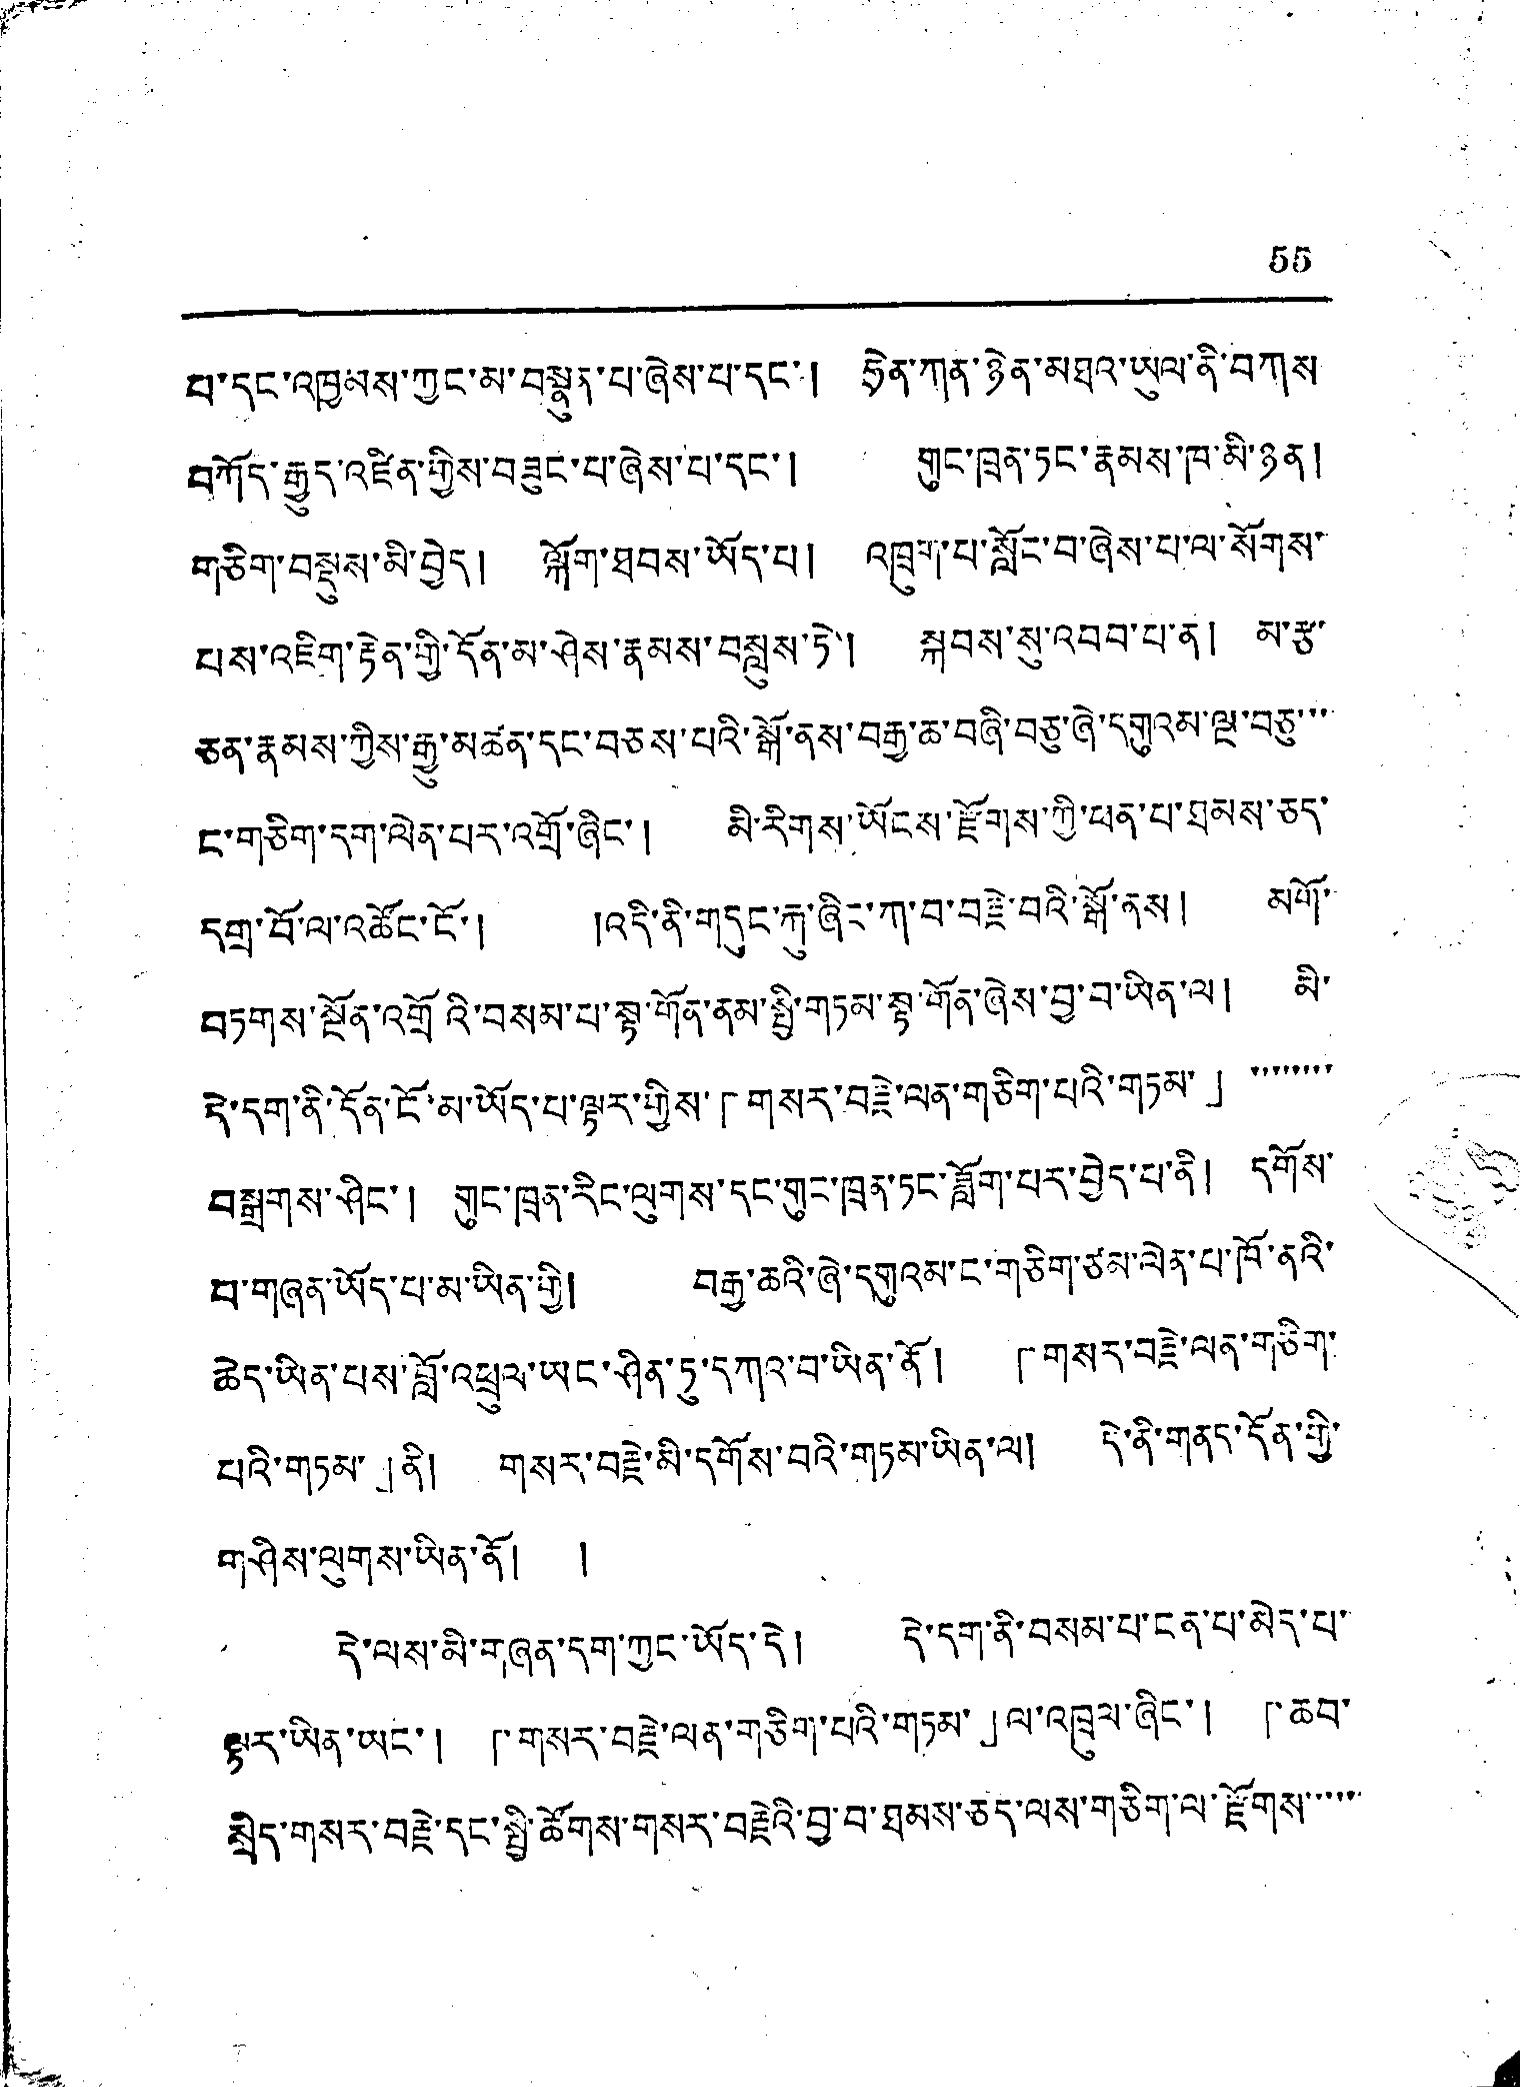55
པ་དང་འཁྱམས་ཀྱང་མ་བསྣུན་པ་ཞེས་པ་དང་། ཧྲེན་ཀུན་ཉེན་མཐའ་ཡུལ་ནི་བཀས་
བཀོད་རྒྱུད་འཛིན་གྱིས་བཟུང་པ་ཞེས་པ་དང་། གུང་ཁྲན་ཏང་རྣམས་ཁ་མི་ཉན།
གཅིག་བསྡུས་མི་བྱེད། ལྐོག་ཐབས་ཡོད་པ། འཁྲུག་པ་སློང་བ་ཞེས་པ་ལ་སོགས་
པས་འཇིག་རྟེན་གྱི་དོན་མ་ཤེས་རྣམས་བསླུས་ཏེ་། སྐབས་སུ་འབབ་པ་ན། མ་རྩ་
ཅན་རྣམས་ཀྱིས་རྒྱུ་མཚན་དང་བཅས་པའི་སྒོ་ནས་བརྒྱ་ཆ་བཞི་བཅུ་ཞེ་དགུའམ་ལྔ་བཅུ་་་་
ང་གཅིག་དག་ལེན་པར་འགྲོ་ཞིང་། མི་རིགས་ཡོངས་རྫོགས་ཀྱི་ཕན་པ་ཐམས་ཅད་
དགྲ་བོ་ལ་འཚོང་ངོ་། །འདི་ནི་གདུང་རྐུ་ཞིང་ཀ་བ་བརྗེ་བའི་སྒོ་ནས། མགོ་
བཏགས་སྔོན་འགྲོའི་བསམ་པ་སྟ་གོན་ནམ་སྤྱི་གཏམ་སྟ་གོན་ཞེས་བྱ་བ་ཡིན་ལ། མི་
དེ་དག་ནི་དོན་ངོ་མ་ཡོད་པ་ལྟར་གྱིས་「གསར་བརྗེ་ལན་གཅིག་པའི་གཏམ་」་་་་་་་་
བསྒྲགས་ཤིང་། གུང་ཁྲན་རིང་ལུགས་དང་གུང་ཁྲན་ཏང་ཟློག་པར་བྱེད་པ་ནི། དགོས་
བ་གཞན་ཡོད་པ་མ་ཡིན་གྱི། བརྒྱ་ཆའི་ཞེ་དགུའམ་ང་གཅིག་ཙམ་ལེན་པ་ཁོ་ནའི་
ཆེད་ཡིན་པས་བློ་འཕྲུལ་ཡང་ཤིན་ཏུ་དཀའ་བ་ཡིན་ནོ། 「གསར་བརྗེ་ལན་གཅིག་
པའི་གཏམ་」ནི། གསར་བརྗེ་མི་དགོས་བའི་གཏམ་ཡིན་ལ། དེ་ནི་གནད་དོན་གྱི་
གཤིས་ལུགས་ཡིན་ནོ། །
དེ་ལས་མི་གཞན་དག་ཀྱང་ཡོད་དེ། དེ་དག་ནི་བསམ་པ་ངན་པ་མེད་པ་
སྟར་ཡིན་ཡང་། 「གསར་བརྗེ་ལན་གཅིག་པའི་གཏམ་」ལ་འཁྲུལ་ཞིང་། 「ཆབ་
སྲིད་གསར་བརྗེ་དང་སྤྱི་ཚོགས་གསར་བརྗེའི་བྱ་བ་ཐམས་ཅད་ལས་གཅིག་ལ་རྫོགས་་་་་་
